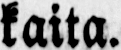kaita.
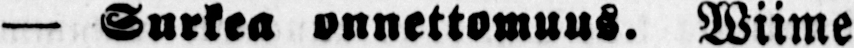— Surkea onnettomuus. Wiime
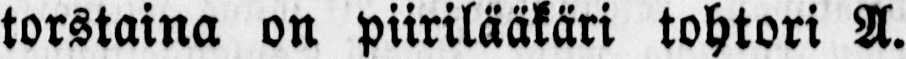torstaina on piirilääkäri tohtori A.
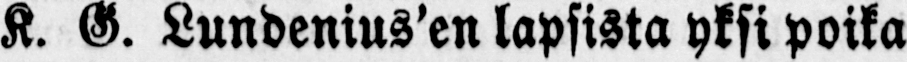K. G. Lundenius’en lapsista yksi poika
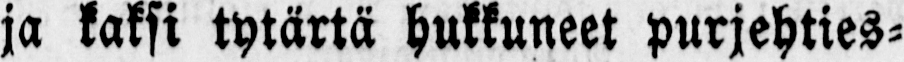ja kaksi tytärtä hukkuneet purjehties-
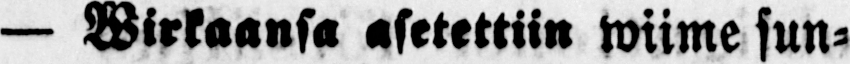— Virkaansa asetettiin wiime sun-
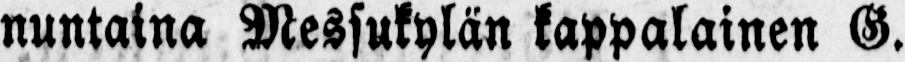nuntaina Messukylän kappalainen G.
